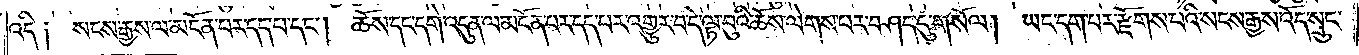འདི༑ སངས་རྒྱས་ལ་མངོན་པར་དད་པ་དང༌། ཆོས་དང་དགེ་འདུན་ལ་མངོན་པར་དད་པར་འགྱུར་བ་དེ་ལྟ་བུའི་ཆོས་ལེགས་པར་བཤད་དུ་གསོལ། ཡང་དག་པར་རྫོགས་པའི་སངས་རྒྱས་འོད་སྲུང་
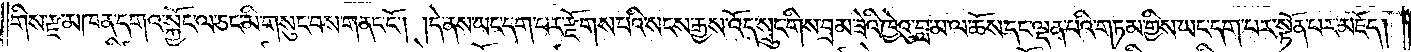གིས་རྫ་མཁན་དགའ་སྐྱོང་ལ་ཅང་མི་གསུང་བས་གནང་ངོ༌། །དེ་ནས་ཡང་དག་པར་རྫོགས་པའི་སངས་རྒྱས་འོད་སྲུང་གིས་བྲམ་ཟེའི་ཁྱེའུ་བླ་མ་ལ་ཆོས་དང་ལྡན་པའི་གཏམ་གྱིས་ཡང་དག་པར་སྟོན་པར་མཛད།
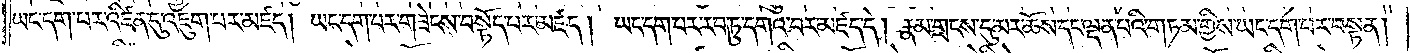ཡང་དག་པར་འཛིན་དུ་འཇུག་པར་མཛད། ཡང་དག་པར་གཟེངས་བསྟོད་པར་མཛད། ཡང་དག་པར་རབ་ཏུ་དགའ་བར་མཛད་དེ། རྣམ་གྲངས་དུ་མར་ཆོས་དང་ལྡན་པའི་གཏམ་གྱིས་ཡང་དག་པར་བསྟན།
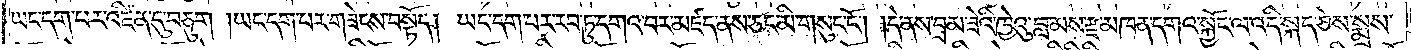ཡང་དག་པར་འཛིན་དུ་བཅུག །ཡང་དག་པར་གཟེངས་བསྟོད། །ཡང་དག་པར་རབ་ཏུ་དགའ་བར་མཛད་ནས་ཅང་མི་གསུང་ངོ༌། །དེ་ནས་བྲམ་ཟེའི་ཁྱེའུ་བླ་མས་རྫ་མཁན་དགའ་སྐྱོང་ལ་འདི་སྐད་ཅེས་སྨྲས་
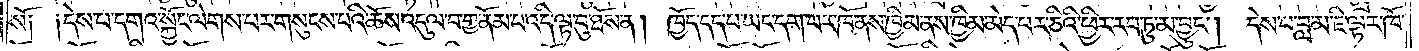སོ༑ ༑དེས་པ་དགའ་སྐྱོང་ལེགས་པར་གསུངས་པའི་ཆོས་འདུལ་བ་གྱ་ནོམ་པ་འདི་ལྟ་བུ་ཐོས་ན། ཁྱོད་དད་པ་ཡང་དག་པར་ཁོ་ནས་ཁྱིམ་ནས་ཁྱིམ་མེད་པར་ཅིའི་ཕྱིར་རབ་ཏུ་མ་བྱུང༌། དེས་པ་བླ་མ་ཇི་ལྟར་ཁོ་
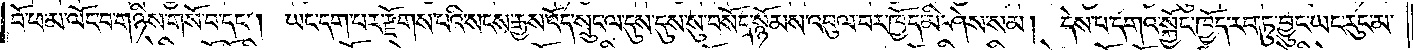བོ་ཕ་མ་ལོང་བ་གཉིས་གསོ་བ་དང༌། ཡང་དག་པར་རྫོགས་པའི་སངས་རྒྱས་འོད་སྲུང་ལ་དུས་དུས་སུ་བསོད་སྙོམས་འབུལ་བར་ཁྱོད་མི་ཤེས་སམ། དེས་པ་དགའ་སྐྱོང་ཁྱོད་རབ་ཏུ་བྱུང་ཡང་རུང་མ་
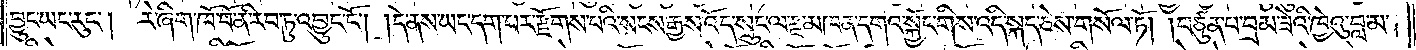བྱུང་ཡང་རུང༌། རེ་ཞིག་ཁོ་བོ་ནི་རབ་ཏུ་འབྱུང་ངོ༌། །དེ་ནས་ཡང་དག་པར་རྫོགས་པའི་སངས་རྒྱས་འོད་སྲུང་ལ་རྫ་མཁན་དགའ་སྐྱོང་གིས་འདི་སྐད་ཅེས་གསོལ་ཏོ། །བཙུན་པ་བྲམ་ཟེའི་ཁྱེའུ་བླ་མ་
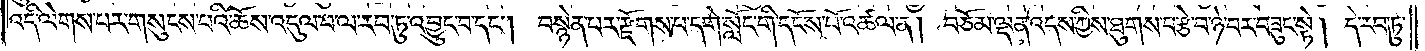འདི་ལེགས་པར་གསུངས་པའི་ཆོས་འདུལ་བ་ལ་རབ་ཏུ་འབྱུང་བ་དང༌། བསྙེན་པར་རྫོགས་པ་དགེ་སློང་གི་དངོས་པོ་འཚལ་ན། བཅོམ་ལྡན་འདས་ཀྱིས་ཐུགས་བརྩེ་བ་ཉེ་བར་བཟུང་སྟེ། དེ་རབ་ཏུ་
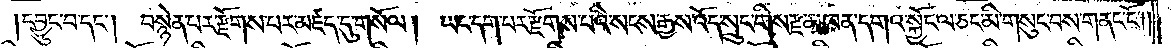དབྱུང་བ་དང༌། བསྙེན་པར་རྫོགས་པར་མཛད་དུ་གསོལ། ཡང་དག་པར་རྫོགས་པའི་སངས་རྒྱས་འོད་སྲུང་གིས་རྫ་མཁན་དགའ་སྐྱོང་ལ་ཅང་མི་གསུང་བས་གནང་ངོ༌༎
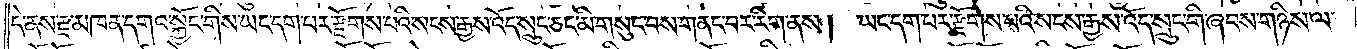དེ་ནས་རྫ་མཁན་དགའ་སྐྱོང་གིས་ཡང་དག་པར་རྫོགས་པའི་སངས་རྒྱས་འོད་སྲུང་ཅང་མི་གསུང་བས་གནང་བར་རིག་ནས།   ཡང་དག་པར་རྫོགས་པའི་སངས་རྒྱས་འོད་སྲུང་གི་ཞབས་གཉིས་ལ་
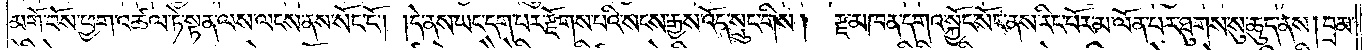མགོ་བོས་ཕྱག་འཚལ་ཏེ་སྟན་ལས་ལངས་ནས་སོང་ངོ༌། །དེ་ནས་ཡང་དག་པར་རྫོགས་པའི་སངས་རྒྱས་འོད་སྲུང་གིས། རྫ་མཁན་དགའ་སྐྱོང་སོང་ནས་རིང་པོར་མ་ལོན་པར་ཐུགས་སུ་ཆུད་ནས། བྲམ་
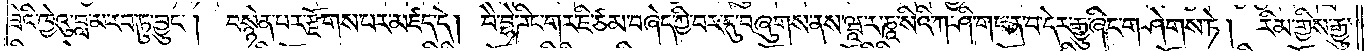ཟེའི་ཁྱེའུ་བླ་མ་རབ་ཏུ་བྱུང༌། བསྙེན་པར་རྫོགས་པར་མཛད་དེ། བཻ་བྷེ་ཌིང་གར་ཇི་ཙམ་བཞེད་ཀྱི་བར་དུ་བཞུགས་ནས་ཝཱ་ར་ཎཱ་སིའི་ཀ་ཤི་གང་ན་བ་དེར་རྒྱུ་ཞིང་གཤེགས་ཏེ། རིམ་གྱིས་རྒྱུ་
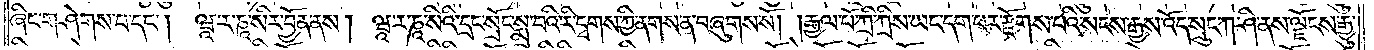ཞིང་གཤེགས་པ་དང༌།  ཝཱ་ར་ཎཱ་སིར་བྱོན་ནས། ཝཱ་ར་ཎཱ་སིའི་སྲོང་སྨྲ་བའི་རི་དྭགས་ཀྱི་ནགས་ན་བཞུགས་སོ། །རྒྱལ་པོ་ཀྲི་ཀྲིས་ཡང་དག་པར་རྫོགས་པའི་སངས་རྒྱས་འོད་སྲུང་ཀ་ཤི་ནས་ལྗོངས་རྒྱུ་
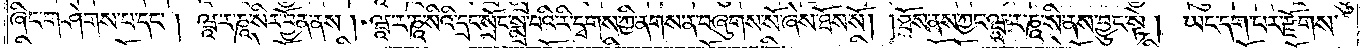ཞིང་གཤེགས་པ་དང༌། ཝཱ་ར་ཎཱ་སིར་བྱོན་ནས། ཝཱ་ར་ཎཱ་སིའི་དྲང་སྲོང་སྨྲ་བའི་རི་དྭགས་ཀྱི་ནགས་ན་བཞུགས་སོ་ཞེས་ཐོས་སོ། །ཐོས་ནས་ཀྱང་ཝཱ་ར་ཎཱ་སི་ནས་བྱུང་སྟེ། ཡང་དག་པར་རྫོགས་
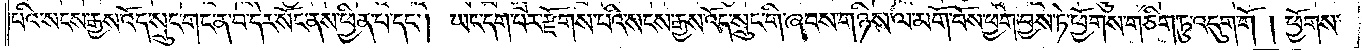པའི་སངས་རྒྱས་འོད་སྲུང་གང་ན་བ་དེར་སོང་ནས་ཕྱིན་པ་དང༌། ཡང་དག་པར་རྫོགས་པའི་སངས་རྒྱས་འོད་སྲུང་གི་ཞབས་གཉིས་ལ་མགོ་བོས་ཕྱག་བྱས་ཏེ་ཕྱོགས་གཅིག་ཏུ་འདུག་གོ །ཕྱོགས་
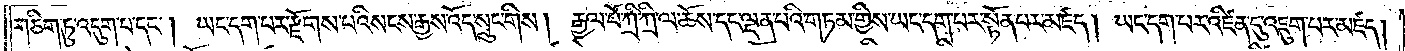གཅིག་ཏུ་འདུག་པ་དང༌། ཡང་དག་པར་རྫོགས་པའི་སངས་རྒྱས་འོད་སྲུང་གིས། རྒྱལ་པོ་ཀྲི་ཀྲི་ལ་ཆོས་དང་ལྡན་པའི་གཏམ་གྱིས་ཡང་དག་པར་སྟོན་པར་མཛད། ཡང་དག་པར་འཛིན་དུ་འཇུག་པར་མཛད།
